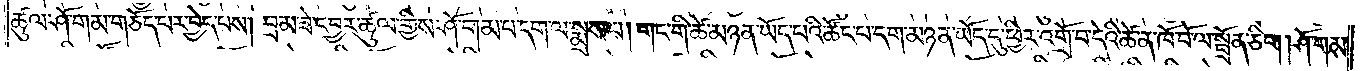ཚུལ་ཤོ་གམ་གཅོད་པར་བྱེད་པས། བྲམ་ཟེ་དབྱར་ཚུལ་གྱིས་ཤོ་གམ་པ་དག་ལ་སྨྲས་པ། གང་གི་ཚེ་མཉན་ཡོད་པའི་ཚོང་པ་དག་མཉན་ཡོད་དུ་ཕྱིར་འགྲོ་བ་དེའི་ཚེ་ན་ཁོ་བོ་ལ་སྦྲོན་ཅིག །ཤོ་གམ་
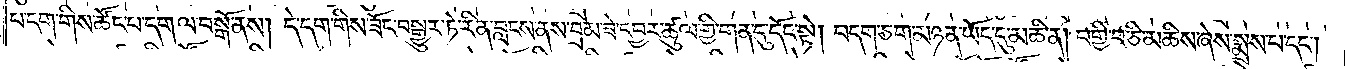པ་དག་གིས་ཚོང་པ་དག་ལ་བསྒོ་ནས། དེ་དག་གིས་ཟོང་བསྒྱུར་ཏེ་རིན་བླངས་ནས་བྲམ་ཟེ་དབྱར་ཚུལ་གྱི་གན་དུ་དོང་སྟེ། བདག་ཅག་མཉན་ཡོད་དུ་མཆི་ན། བགྱི་བ་ཅི་མཆིས་ཞེས་སྨྲས་པ་དང༌།
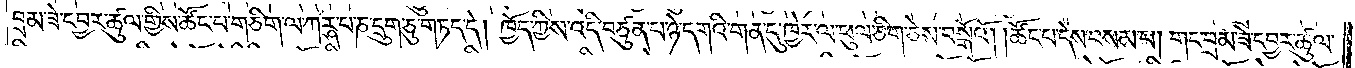བྲམ་ཟེ་དབྱར་ཚུལ་གྱིས་ཚོང་པ་གཅིག་ལ་ཀཪྴ་པ་ཎ་དྲུག་ཅུ་གཏད་དེ། ཁྱོད་ཀྱིས་འདི་བཙུན་པ་ཉེ་དགའི་གན་དུ་ཁྱེར་ལ་ཕུལ་ཅིག་ཅེས་བསྒོའོ། །ཚོང་པ་དེས་བསམ་པ། གང་བྲམ་ཟེ་དབྱར་ཚུལ་
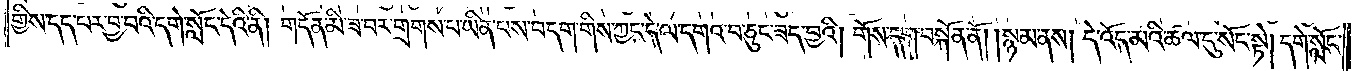གྱིས་དད་པར་བྱ་བའི་དགེ་སློང་དེའི་ནི། གདོན་མི་ཟ་བར་གྲགས་པ་ཡིན་པས་བདག་གིས་ཀྱང་དེ་ལ་དགའ་བ་ཅུང་ཟད་བྱའི། གོས་དག་བསྐོན་ནོ། །སྙམ་ནས། དེ་འོད་མའི་ཚལ་དུ་སོང་སྟེ། དགེ་སློང་
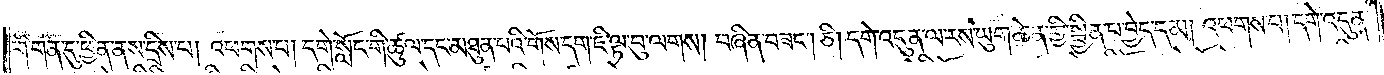གི་གན་དུ་ཕྱིན་ནས་དྲིས་པ། འཕགས་པ། དགེ་སློང་གི་ཚུལ་དང་མཐུན་པའི་གོས་དག་ཇི་ལྟ་བུ་ལགས། བཞིན་བཟང༌། ཅི། དགེ་འདུན་ལ་རས་ཡུག་ཆེན་གྱི་སྦྱིན་པ་བྱེད་དམ། འཕགས་པ། དགེ་འདུན་
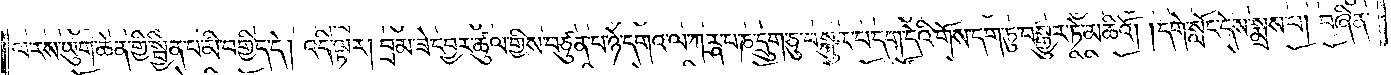ལ་རས་ཡུག་ཆེན་གྱི་སྦྱིན་པ་མི་བགྱིད་དེ། འདི་ལྟར། བྲམ་ཟེ་དབྱར་ཚུལ་གྱིས་བཙུན་པ་ཉེ་དགའ་ལ་ཀཪྴ་པ་ཎ་དྲུག་ཅུ་བསྐུར་པ་དག་དེའི་གོས་དག་ཏུ་བསྒྱུར་ཏེ་མཆིའོ། །དགེ་སློང་དེས་སྨྲས་པ། བཞིན་
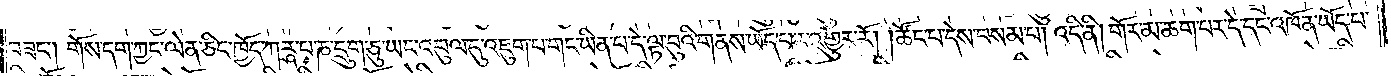བཟང༌། གོས་དག་ཀྱང་ལེན་ཅིང་ཁྱོད་ཀཪྴ་པ་ཎ་དྲུག་ཅུ་ཡང་འབུལ་དུ་འཇུག་པ་གང་ཡིན་པ་དེ་ལྟ་བུའི་གནས་ཡོད་པར་འགྱུར་རོ། །ཚོང་པ་དེས་བསམ་པ། འདི་ནི། གོར་མ་ཆག་པར་དེ་དང་འཁོན་ཡོད་པ་
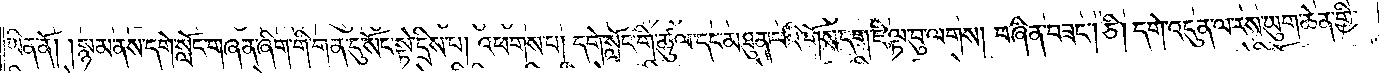ཡིན་ནོ། །སྙམ་ནས་དགེ་སློང་གཞན་ཞིག་གི་གན་དུ་སོང་སྟེ་དྲིས་པ། འཕགས་པ། དགེ་སློང་གི་ཚུལ་དང་མཐུན་པའི་གོས་དག་ཇི་ལྟ་བུ་ལགས། བཞིན་བཟང༌། ཅི། དགེ་འདུན་ལ་རས་ཡུག་ཆེན་གྱི་
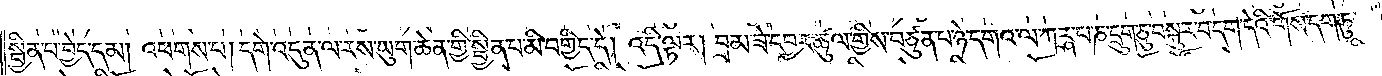སྦྱིན་པ་བྱེད་དམ། འཕགས་པ། དགེ་འདུན་ལ་རས་ཡུག་ཆེན་གྱི་སྦྱིན་པ་མི་བགྱིད་དེ། འདི་ལྟར། བྲམ་ཟེ་དབྱར་ཚུལ་གྱིས་བཙུན་པ་ཉེ་དགའ་ལ་ཀཪྴ་པ་ཎ་དྲུག་ཅུ་བསྐུར་བ་དག་དེའི་གོས་དག་ཏུ་
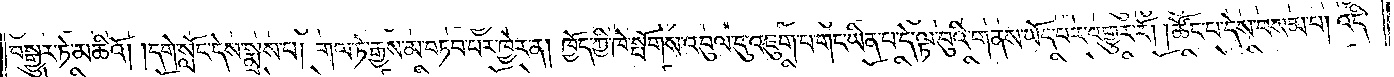བསྒྱུར་ཏེ་མཆིའོ། །དགེ་སློང་དེས་སྨྲས་པ། གལ་ཏེ་རྒྱས་མ་བཏབ་པར་ཁྱེར་ན། ཁྱོད་ཀྱི་ཁེ་སྤོགས་འབུལ་དུ་འཇུག་པ་གང་ཡིན་པ་དེ་ལྟ་བུའི་གནས་ཡོད་པར་འགྱུར་རོ། །ཚོང་པ་དེས་བསམ་པ། འདི་
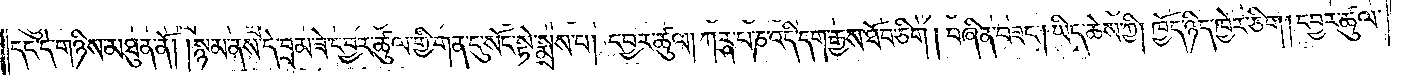དང་དེ་གཉིས་མཐུན་ནོ། །སྙམ་ནས་དེ་བྲམ་ཟེ་དབྱར་ཚུལ་གྱི་གན་དུ་སོང་སྟེ་སྨྲས་པ། དབྱར་ཚུལ། ཀཪྴ་པ་ཎ་འདི་དག་རྒྱས་ཐོབ་ཅིག །བཞིན་བཟང༌། ཡིད་ཆེས་ཀྱི། ཁྱོད་ཉིད་ཁྱེར་ཅིག །དབྱར་ཚུལ་
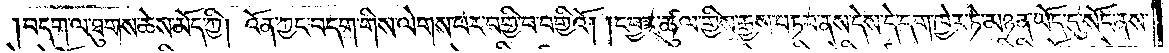།བདག་ལ་ཐུགས་ཆེས་མོད་ཀྱི། འོན་ཀྱང་བདག་གིས་ལེགས་པར་བགྱི་བ་བགྱིའོ། །དབྱར་ཚུལ་གྱིས་རྒྱས་བཏབ་ནས་དེས་དེ་དག་ཁྱེར་ཏེ་མཉན་ཡོད་དུ་སོང་ནས་
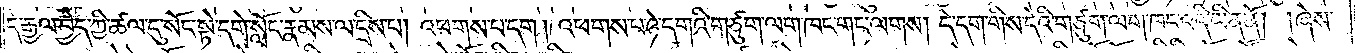དེ་རྒྱལ་བྱེད་ཀྱི་ཚལ་དུ་སོང་སྟེ་དགེ་སློང་རྣམས་ལ་དྲིས་པ། འཕགས་པ་དག །འཕགས་པ་ཉེ་དགའི་གཙུག་ལག་ཁང་གང་ལགས། དེ་དག་གིས་དེའི་གཙུག་ལག་ཁང་འདི་ཡིན་ནོ། །ཞེས་
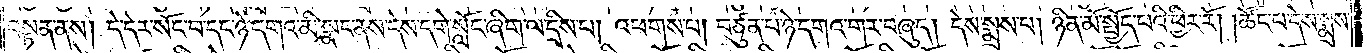བསྟན་ནས། དེ་དེར་སོང་བ་དང་ཉེ་དགའ་མི་སྣང་ནས་དེས་དགེ་སློང་ཞིག་ལ་དྲིས་པ། འཕགས་པ། བཙུན་པ་ཉེ་དགའ་གར་བཞུད། དེས་སྨྲས་པ། ཉིན་མོ་སྤྱོད་པའི་ཕྱིར་རོ། །ཚོང་པ་དེས་སྨྲས་
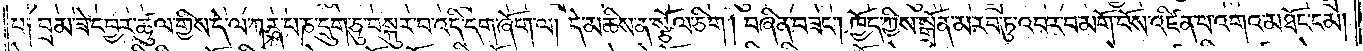པ༑ བྲམ་ཟེ་དབྱར་ཚུལ་གྱིས་དེ་ལ་ཀཪྴ་པ་ཎ་དྲུག་ཅུ་བསྐུར་བ་འདི་དག་ཞོག་ལ། དེ་མཆིས་ན་སྩོལ་ཅིག །བཞིན་བཟང༌། ཁྱོད་ཀྱིས་སྒྲོན་མ་རབ་ཏུ་འབར་བ་མགོ་བོས་འཛིན་པ་འགའ་མཐོང་ངམ།
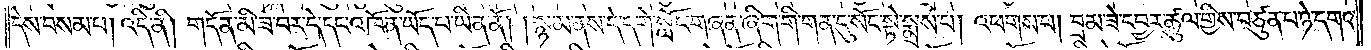དེས་བསམ་པ། འདི་ནི། གདོན་མི་ཟ་བར་དེ་དང་འཁོན་ཡོད་པ་ཡིན་ནོ། །སྙམ་ནས་དེ་དགེ་སློང་གཞན་ཞིག་གི་གན་དུ་སོང་སྟེ་སྨྲས་པ། འཕགས་པ། བྲམ་ཟེ་དབྱར་ཚུལ་གྱིས་བཙུན་པ་ཉེ་དགའ་
